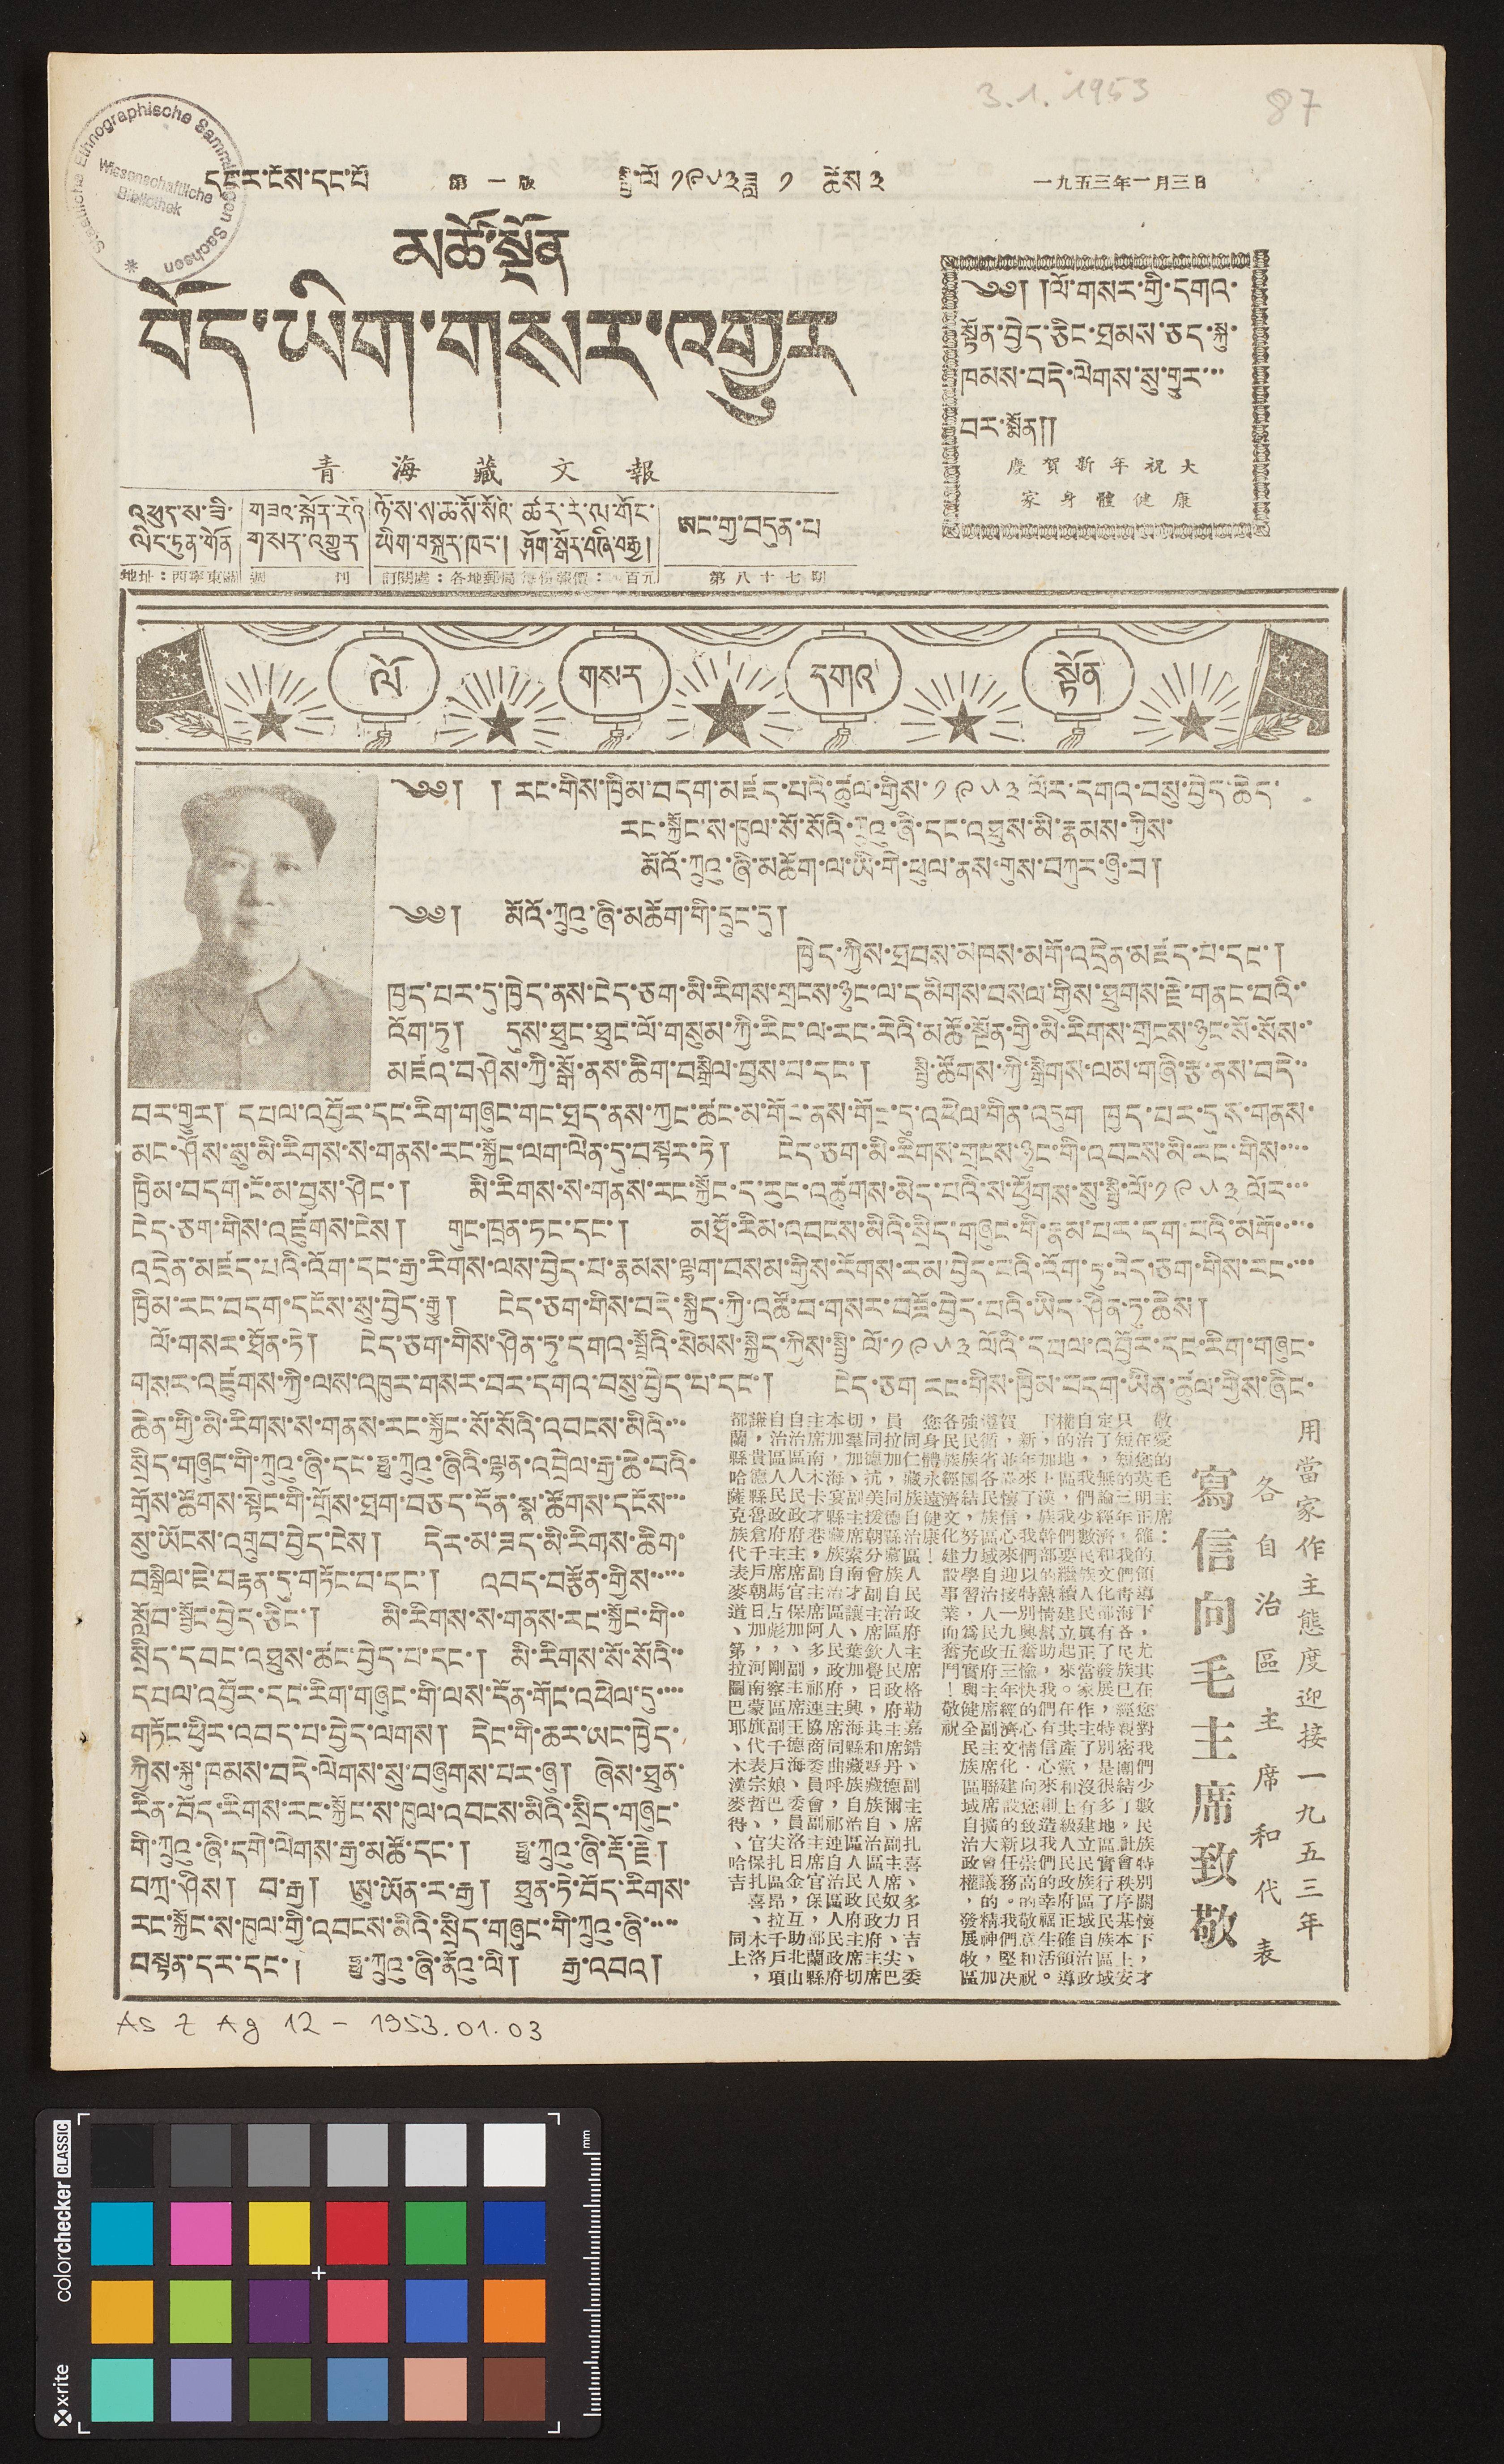དཔར་ངོས་དང་པོ 第 一 版 སྤྱི་ལོ ༡༩༥༣ ཟླ ༡ ཚེས ༣ 一九五三年一月三日
མཚོ་སྔོན
བོད་ཡིག་གསར་འགྱུར
青 海 藏 文 報
༄༅། །ལོ་གསར་གྱི་དགའ་
སྟོན་བྱེད་ཅིང་ཐབས་ཅད་སྐུ་
ཁམས་བདེ་ལེགས་སུ་གྱུར་་་
བར་སྨོན༎
慶 賀 新 年 祝 大
家 身 體 健 康
ལོ གསར དགའ སྟོན
༄༅། ། རང་གིས་ཁྱིམ་བདག་མཛད་པའི་ཚུལ་གྱིས་ ༡༩༥༣ ལོར་དགའ་བསུ་བྱེད་ཆེད་
རང་སྐྱོང་ས་ཁུལ་སོ་སོའི་ཀྲུའུ་ཞི་དང་འཐུས་མི་རྣམས་ཀྱིས་
མོའོ་ཀྲུའུ་ཞི་མཆོག་ལ་ཡི་གེ་ཕུལ་ནས་གུས་བཀུར་ཞུ་བ།
༄༅། མོའོ་ཀྲུའུ་ཞི་མཆོག་གི་དྲུང་དུ།
ཁྱེད་ཀྱིས་ཐབས་མཁས་མགོ་འདྲེན་མཛད་པ་དང་།
ཁྱད་པར་དུ་ཁྱེད་ནས་ངེད་ཅག་མི་རིགས་གྲངས་ཉུང་ལ་དམིགས་བསལ་གྱིས་ཐུགས་རྗེ་གནང་བའི་་
འོག་ཏུ། དུས་ཐུང་ཐུང་ལོ་གསུམ་ཀྱི་རིང་ལ་རང་རེའི་མཚོ་སྔོན་གྱི་མི་རིགས་གྲངས་ཉུང་སོ་སོས་་
མཛའ་བཤེས་ཀྱི་སྒོ་ནས་ཆིག་བསྒྲིལ་བྱས་པ་དང་། སྤྱི་ཚོགས་ཀྱི་སྒྲིགས་ལམ་གཞི་རྩ་ནས་བདེ་་
བར་གྱུར། དཔལ་འབྱོར་དང་རིག་གཞུང་གང་ཐད་ནས་ཀྱང་ཚང་མ་གོང་ནས་གང་དུ་འཕེལ་གིན་འདུག ཁྱད་པར་དུས་གནས་
མང་ཤོས་སུ་མི་རིགས་ས་གནས་རང་སྐྱོང་ལག་ལེན་དུ་བསྟར་ཏེ། ངེད་ཅག་མི་རིགས་གྲངས་ཉུང་གི་འབངས་མི་རང་གིས་་་་
ཁྱིམ་བདག་ངོ་མ་བྱས་ཤིང་། མི་རིགས་ས་གནས་རང་སྐྱོང་ད་རུང་འཚུགས་མེད་པའི་ས་ཕྱོགས་སུ་སྤྱི་ལོ་༡༩༥༣ ལོར་་་
ངེད་ཅག་གིས་འཛུགས་ངེས། གུང་ཁྲན་ཏང་དང་། མཐོ་རིམ་འབངས་མིའི་སྲིད་གཞུང་གི་རྣམ་པར་དག་པའི་མགོ་་་་་
འདྲེན་མཛད་པའི་འོག་དང་རྒྱ་རིགས་ལས་བྱེད་པ་རྣམས་ལྷག་བསམ་གྱིས་རོགས་རམ་བྱེད་པའི་འོག་ཏུ་བདེ་ཅག་གིས་རང་་་་
ཁྱིམ་རང་བདག་དངོས་སུ་བྱེད་རྒྱུ། ངེད་ཅག་གིས་བདེ་སྐྱིད་ཀྱི་འཚོ་བ་གསར་བཟོ་བྱེད་པའི་ཡིད་ཤིན་ཏུ་ཆེས།
ལོ་གསར་ཐོན་ཏེ། ངེད་ཅག་གིས་ཤིན་ཏུ་དགའ་སྤྲོའི་སེམས་སྐྱེད་ཀྱིས་སྤྱི་ལོ་༡༩༥༣ ལོའི་དཔལ་འབྱོར་དང་རིག་གཞུང་
གསར་འཛུགས་ཀྱི་ལས་འཁུར་གསར་བར་དགའ་བསུ་བྱེད་པ་དང་། ངེད་ཅག རང་གིས་ཁྱིམ་བདག་ཡིན་ཚུལ་གྱིས་ཞིང་
ཆེན་གྱི་མི་རིགས་ས་གནས་རང་སྐྱོང་སོ་སོའི་འབངས་མིའི་་་
སྲིད་གཞུང་གི་ཀྲུའུ་ཞི་དང་ཧྥུ་ཀྲུའུ་ཞིའི་ལྷན་འབྲེལ་རྒྱ་ཆེ་བའི་
གྲོས་ཚོགས་སྟེང་གི་གྲོས་ཐག་བཅད་དོན་སྣ་ཚོགས་དངོས་་་
སུ་ཡོངས་འགྲུབ་བྱེད་ངེས། དེར་མ་ཟད་མི་རིགས་ཆིག་
བསྒྲིལ་ཇེ་བརྟན་དུ་གཏོང་བ་དང་། འབད་བརྩོན་གྱིས་་་་་
སློབ་སྦྱོང་བྱེད་ཅིང་། མི་རིགས་ས་གནས་རང་སྐྱོང་གི་་
སྲིད་དབང་འཐུས་ཚང་བྱེད་པ་དང་། མི་རིགས་སོ་སོའི་་
དཔལ་བྱོར་དང་རིག་གཞུང་གི་ལས་དོན་གོང་འཕེལ་དུ་་་་
གཏོང་ཕྱིར་འབད་པ་བྱེད་ལགས། དེང་གི་ཆར་ཡང་ཁྱེད་
ཀྱིས་སྐུ་ཁམས་བདེ་ལེགས་སུ་བཞུགས་པར་ཞུ། ཞེས་ཐུན་
རིན་བོད་རིགས་རང་སྐྱོང་ས་ཁུལ་འབངས་མིའི་སྲིད་གཞུང་
གི་ཀྲུའུ་ཞི་དགེ་ལེགས་རྒྱ་མཚོ་དང་། ཧྥུ་ཀྲུའུ་ཞི་རྡོ་རྗེ།
བཀྲ་ཤིས། བ་རྒྱ། ཨུ་ཡོན་ར་རྒྱ། ཐུན་ཏེ་བོད་རིགས་
རང་སྐྱོང་ས་ཁུལ་གྱི་འབངས་མིའི་སྲིད་གཞུང་གི་ཀྲུའུ་ཞི་་་་་
བསྟན་དར་དང་། ཧྥུ་ཀྲུའུ་ཞི་ནོའུ་ལི། རྒྱ་འབའ།
用當家作主態度迎接一九五三年
各自治區主席和代表
寫信向毛主席致敬
敬愛的毛主席：
在您英明正確度領導下，尤其在您對我們少數民族特別關懷下，才
只短短的一年，我們青海各民族已經親密團結了，社會秩序基本上安
定了，無論經濟和文化都有了發展，特別是很多地區實行了民族區域
自治，我們少數民族人民真正當家作主了，沒有建立民族區域自治政
權的地區，我們要繼續建立起來。在共產黨和上級人民政府正確領導
下，加上漢族幹部的熱情幫助，我們有信心來創造我們的幸福生活。
新年來了，我們以特別興奮愉快的心情，向您致以崇高的敬意和祝
賀，並滿懷信心來迎接一九五三年經濟文化建設的新任務。我們堅決
遵循省各民族區域自治人民政府主席副主席聯席擴大會議的精神，加
強民族團結，努力學習，爲充實與健全民族區域自治政權，發展牧區
各民族經濟文化建設事業而奮鬥！敬祝
您身體永遠健康！
同仁藏族自治區人民政府主席格勒嘉錯、副主席扎喜、多日吉、委
員拉加，同德縣藏族自治區人民政府主席丹德爾、副主席奴力、尖巴
，同德抗美援朝分會副主席欽覺日，共和縣藏族自治區人民政府主席
切羣加、副主席索南才讓、葉加，興海縣藏族自治區人民政府主席切
本加，海晏縣藏族自治區人民政府主席同曲呼，祁連自治區人民政府
主席南木卡才巷，副主席阿多，祁連協同委員會副主席官保，都蘭縣
自治區人民政府主席官保加、副主席王德海、委員洛日金，互助北山
自治區人民政府主席馬占彪，剛察區副千戶娘巴，尖扎區昂拉千戶項
謙，貴德縣魯倉千戶朝日加，河南蒙旗代表宗哲、官保扎喜、木洛，
都蘭縣哈薩克族代表麥道、第拉圖巴耶、木漢麥得、哈吉 同上
